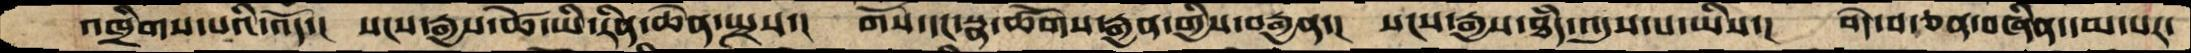འཁྲིགས་པའི་འོད་།  སངས་རྒྱས་ཚེ་ཡི་རིན་ཆེན་སྤྲས་།  གོས་དང་སྣ་ཚོགས་རྒྱན་གྱིས་བརྒྱན་།  སངས་རྒྱས་ཐདཾ་འདུས་པ་ཡིས་།  བདེ་བ་ཅན་བཞིན་དམ་པར་
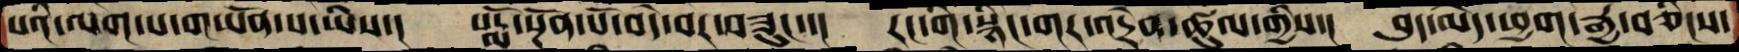པའི་ལག་པ་གཡོན་པ་ཡིས་།  པདྨོ་སྔོན་པོ་བདེ་བར་བཟུང་་།  རང་གི་སྙིང་གར་འདྲེན་ཚུལ་གྱིས་།  བུད་མེད་ཕྱག་རྒྱ་བཅིངས་
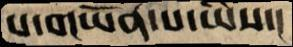པ་གཡོན་པ་ཡིས་།
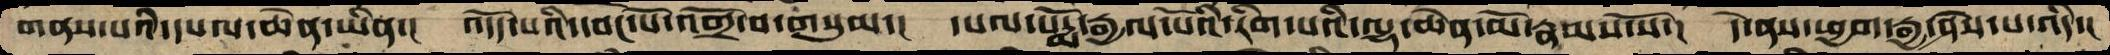གནས་པའི་དཔལ་ཆེན་ཡིན་།  འདོད་པའི་དབང་པོ་འགྲོ་བ་གསུམ་།  དཔལ་པདྨོ་རྒྱལ་པོའི་རིག་པའི་ལྷ་ཆེན་མོ་རྣམས་སོ་།  དེ་ནས་ཕྱག་རྒྱ་ཤེས་པ་འདི་།
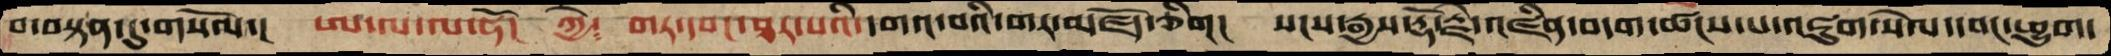བ་བསྟན་དུ་གསོལ་།  ཨ་ལ་ལ་ཧོ།  ཀྱེ༴ གར་དབང་ཐར་པའི་དགའ་བའི་གར་མཛད་ཅིག།  སངས་རྒྱས་རྡོ་རྗེ་འཛིན་བདག་ཚངས་པ་འཇུག་སེལ་དབང་ཕྱུག་
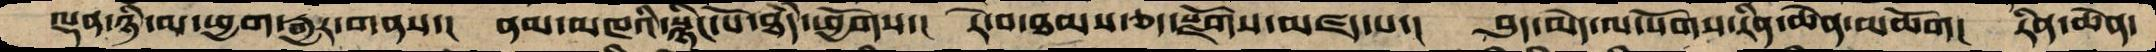ལྡན་ཉི་མ་ཕྱག་རྒྱར་གནས་།  ནམ་མཁའི་སྙིང་པོ་ཐཾད་ཕྱོགས་།  རེ་བ་ཐམས་ཅད་སྫོགས་མཛད་པ་།  བུད་མེད་ལ་སོགས་རིན་ཆེན་མཆོག།  རིན་ཆེན་
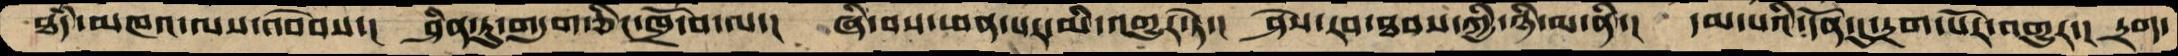ཐཾད་མཁའ་ལས་འབེབས་།  ཤིན་ཏུ་གདུག་ཅིང་ཁྲོ་བ་ལ་།  ཞི་བས་ཕན་པར་མི་འགྱུར་ཏེ་།  ཤེས་རབ་ཐབས་ཀྱི་ཉི་མ་ནི་།  དམ་པའི་དོན་དུདྲག་པོར་འགྱུར་། དྲག་
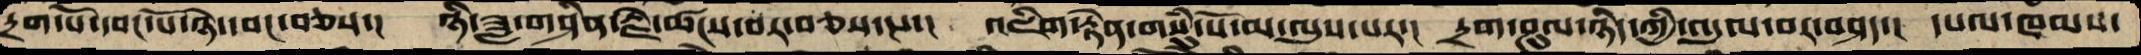དྲག་པོ་དབང་པོ་ཉེ་དབང་བཅས་།  ཉི་ཟླ་གཤིན་རྗེ་ཚངས་པར་བཅས་པ་།  འཇིག་རྟེན་གསུཾ་པོ་མ་ལུས་པར་།  དྲག་ཤུལ་ཉིད་ཀྱི་འདུལ་བར་བཤད་།  དཔལ་ཁམས་
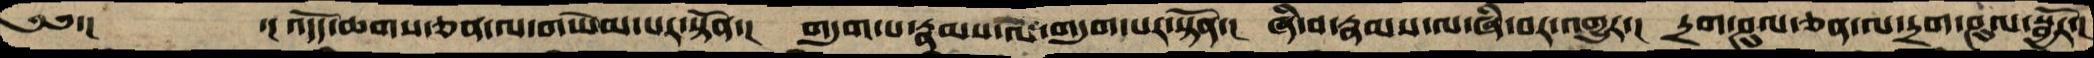༄༅་།    ་།འདོད་ཆགས་ཅན་ལ་གཡེམ་པར་སྟོན་།  གདུག་པ་རྣམས་ལ་གདུག་པར་སྟོན་།  ཞི་བ་རྣམས་ལ་ཞི་བར་འགྱུར་།  དྲག་ཤུལ་ཅན་ལ་དྲག་ཤུལ་སྦྱོར་།
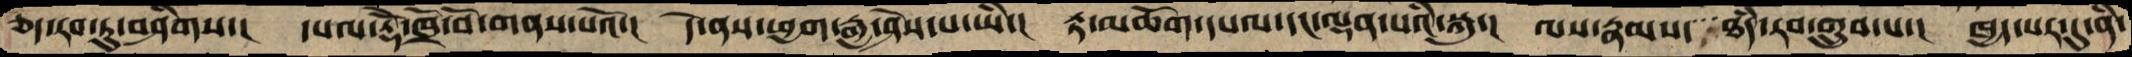ཅད་རབ་ཏུ་བཤིགས་།  དཔལ་རྡོེ་ཁྲོ་བོ་གནས་པའོ་།  དེ་ནས་ཕྱག་རྒྱ་ཤེས་པ་ཡི་།  རྟ་མཆོག་དཔལ་དང་ལྡན་པའི་སྐུ་།  ལས་རྣམས་   ཐཾད་རབ་གྲུབ་པ་།  ཁྱད་པར་དུ་ནི་
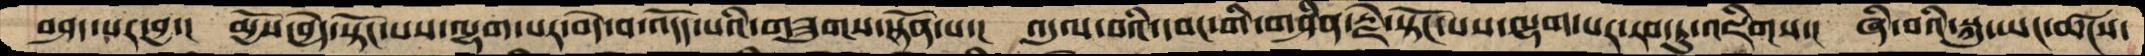བཤད་པར་བྱ་།  མྱོས་བྱེད་སྟོང་པས་ལྷག་པར་བདེ་བ་འདོད་པའི་གཟུགས་སྟོན་པ་།  འདུལ་བའི་དབང་གི་གཤིན་རྗེ་སྟོང་པས་ལྷག་པར་རབ་ཏུ་འཇིགས་།  ཞི་བའི་སྐུ་ཡང་ཚངས་
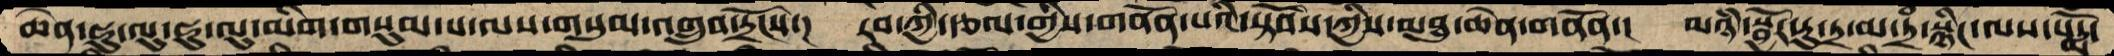ཆེན་ཧུ་ལུ་ཧུ་ལུ་མིག་གསུམ་པ་ལས་གསུམ་འགྲུབ་དྲོངས་།  རབ་ཀྱི་རྩལ་གྱིས་གནོན་པའི་སྟོབས་ཀྱིས་མཐུ་ཆེན་གནོན་།  མཉཾ་སྦྱོར་རུ་ཏྲ་མ་ཏྲཾ་སྙིང་ལས་པདྨོ་
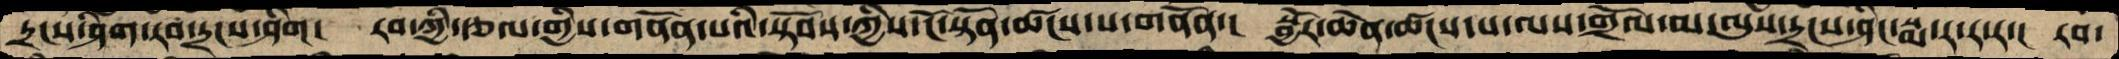དྲངས་ཤིག་རབ་དྲངས་ཤིག།  རབ་ཀྱི་རྩལ་གྱིས་གནོན་པའི་སྟོབས་ཀྱིས་ངོ་སྟོན་ཚངས་པ་གནོན་།  སྦྱོར་ཆེན་ཚངས་པ་ལས་གྲོལ་མ་ལུས་དྲངས་ཤིང་སྨ་ར་ར་ར་།  རབ་
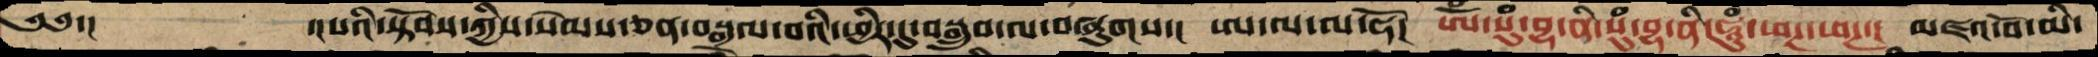༄༅་།     ་།པའི་སྟོབས་ཀྱིས་སེམས་ཅན་བསྒྲལ་བའི་ཕྱིར་དུ་བསྒྲུབ་ལ་བཞུགས་།  ཨ་ལ་ལ་ཧོ།  ཨོཾ་སུཾ་བྷ་ནི་སུཾ་བྷ་ནི་ཧཱུཾ་ཕཊ་ཕཊ་།  མཛའ་བོ་མི་
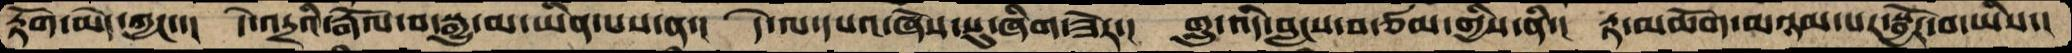རྟོག་མེད་ཀྱང་་།  དེ་འདྲའི་རྒོལ་བ་སྒྱུ་མ་ཡིན་པས་ན་།  དེ་ལ་དཔའ་ཞེས་སུ་ཞིག་ཟེར་།  གླུ་འདི་བླངས་བ་ཙམ་གྱིས་ནི་།  རྟ་མཆོག་མཉམ་པར་སྦྱོར་བ་ཡིས་།
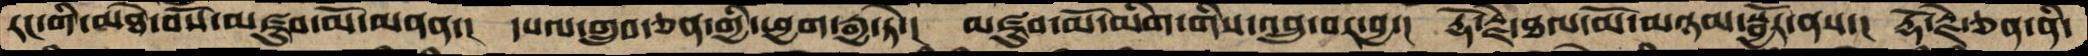རང་གི་མཐེ་བོས་མཛུབ་མོ་མནན་།  དཔལ་གྲུབ་ཅན་གྱི་ཕྱག་རྒྱ་ཏེ་།  མཛུབ་མོ་མིག་གིས་འབྲུ་བར་བྱ་།  རྡོ་རྗེ་ཐལ་མོ་མཉམ་སྦྱོར་ནས་།  རྡོ་རྗེ་ཅན་ནི་
